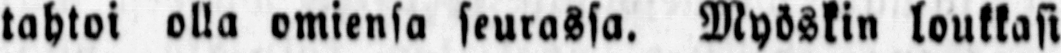tahtoi olla omiensa seurassa. Myöskin loukkasi
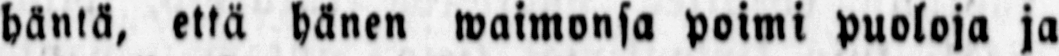häntä, että hänen waimonsa poimi puoloja ja
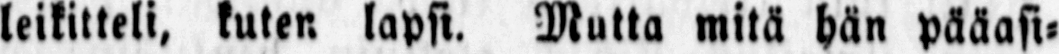leikitteli, kuten lapsi. Mutta mitä hän pääasi-
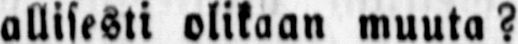allisesti olikaan muuta?
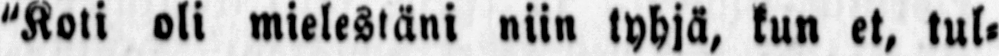"Koti oli mielestäni niin tyhjä, kun et, tul-
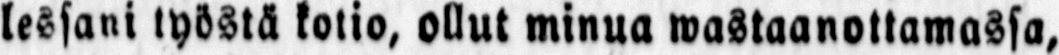lessani työstä kotia, ollut minua wastaanottamassa,
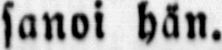sanoi hän.
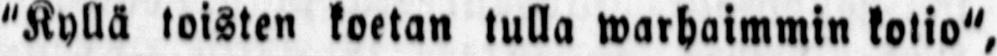"Kyllä toisten koetan tulla warhaimmin kotia",
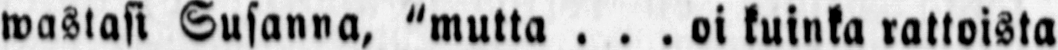wastasi Susanna, "mutta . . . oi kuinka rattoista
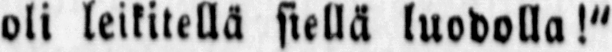oli leikitellä siellä luodolla!"
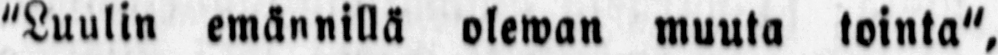"Luulin emännillä olewan muuta tointa",
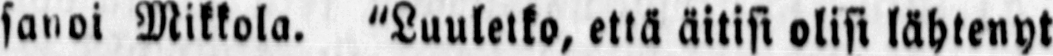sanoi Mikkola. "Luuletko, että äitisi olisi lähtenyt
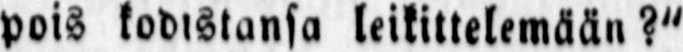pois kodistansa leikittelemään?"
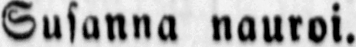Susanna nauroi.
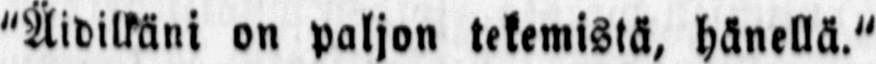"Äidilkäni on paljon tekemistä, hänellä."
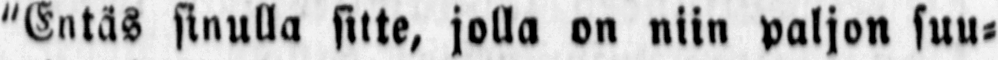"Entäs sinulla sitte, jolla on niin paljon suu-
